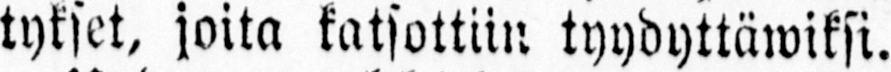tykset, joita katsottiin tyydyttäwiksi.
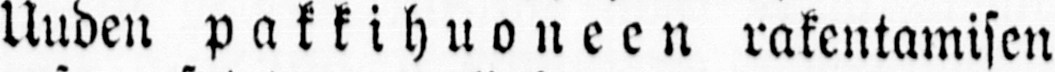Uuden pakkihuoneen rakentamisen
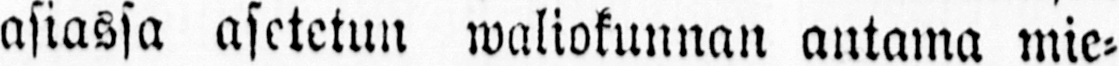asiassa asetetun antama mie-
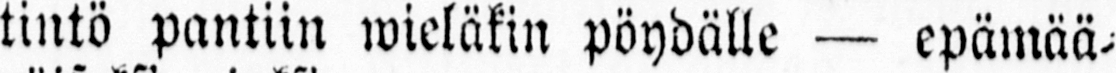tintö pantiin wieläkin pöydälle — epämää-
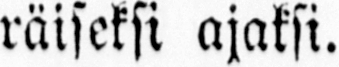räiseksi ajaksi.
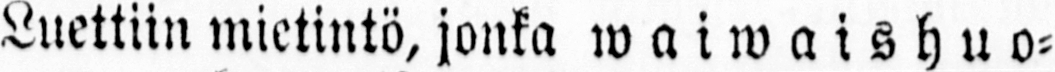Luettiin mietintö, jonka waiwaishuo-
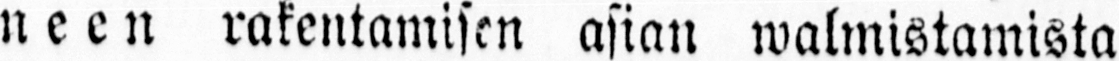neen rakentamisen asian walmistamista
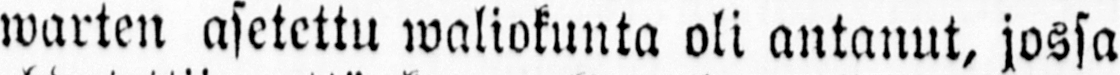warten asetettu waliokunta oli antanut, jossa
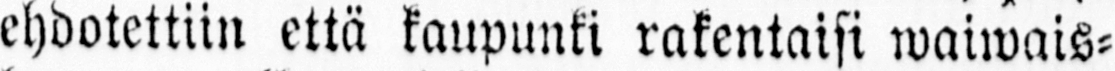ehdotettiin että kaupunki rakentaisi waiwais-
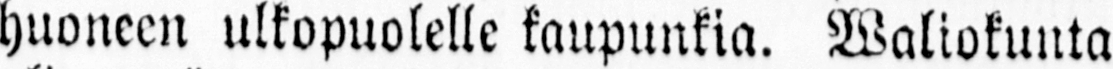huoneen ulkopuolelle kaupunkia. Waliokunta
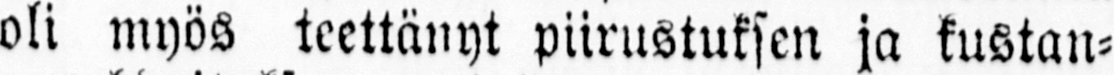oli myös teettänyt piirustuksen ja kustan-
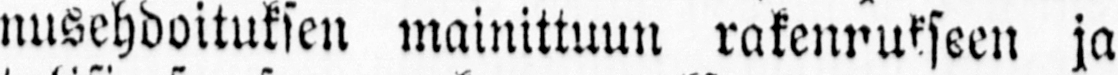nusehdoituksen mainittuun rakennukseen ja
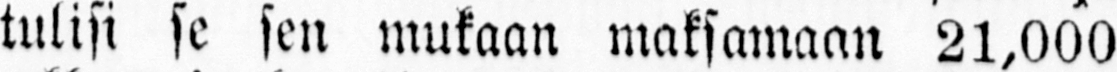tulisi se sen mukaan maksamaan 21,000
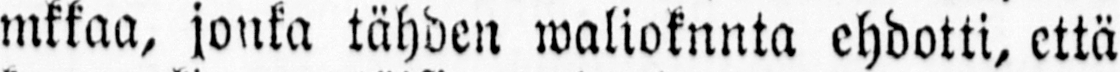mkkaa, jonka tähden walioknnta ehdotti, että
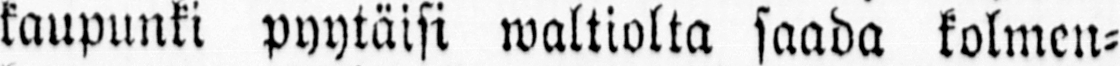kaupunki pyytäisi waltiolta saada kolmen-
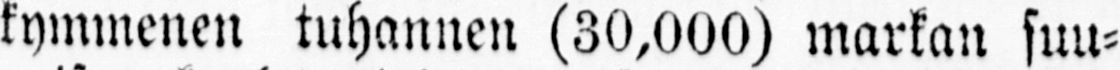kymmenen tuhannen (30,000) markan suu-
